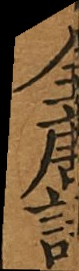全唐詩
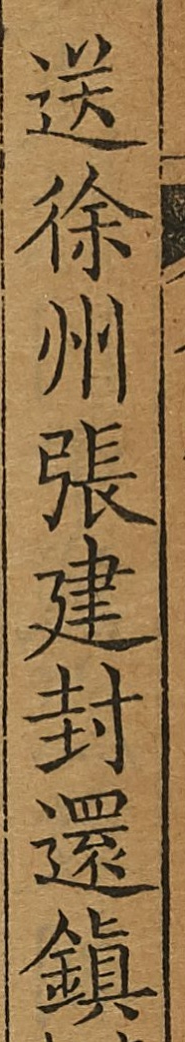送徐州張建封還鎮
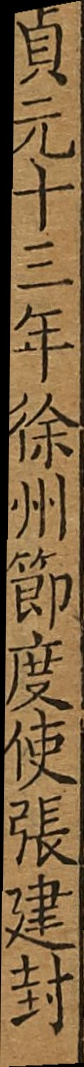貞元十三年徐州節度使張建封
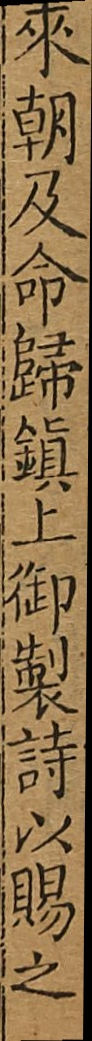來朝及命歸鎮上御製詩以賜之
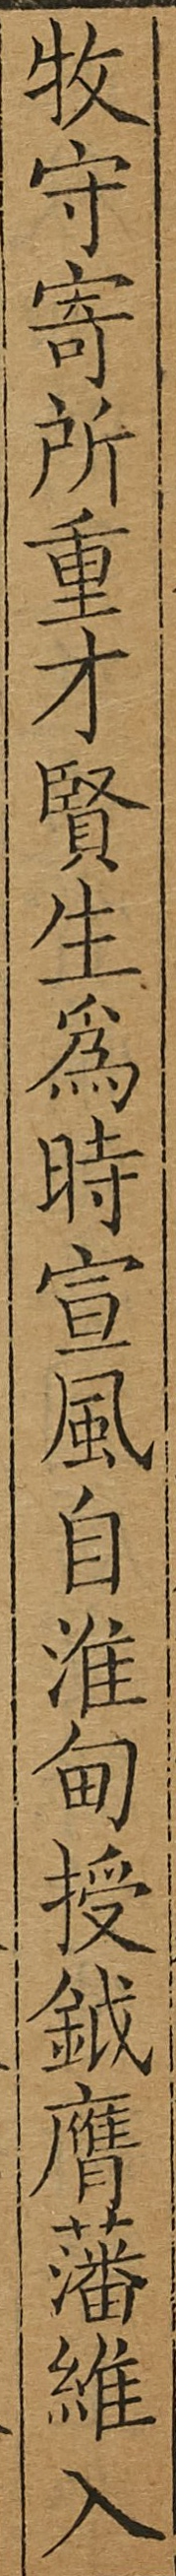牧守寄所重才賢生爲時宣風自淮甸授鉞膺藩維入
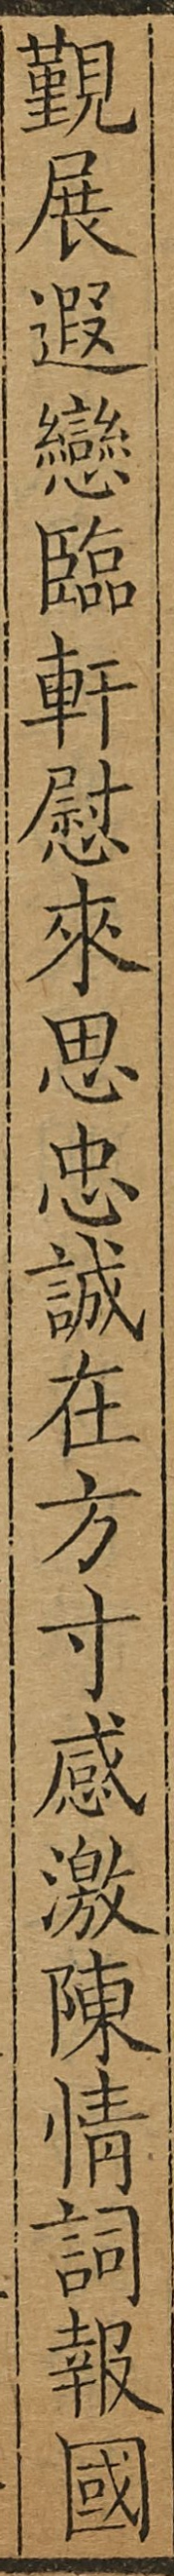覲展遐戀臨軒慰來思忠誠在方寸感激陳情詞報國
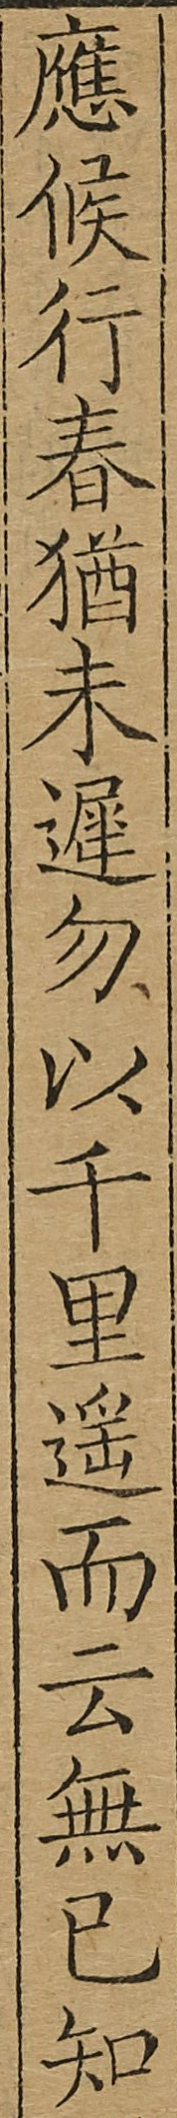應候行春猶未遲勿以千里遙而云無己知
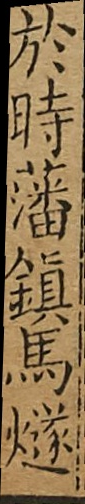於時藩鎮馬燧
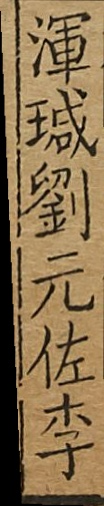渾瑊劉元佐李
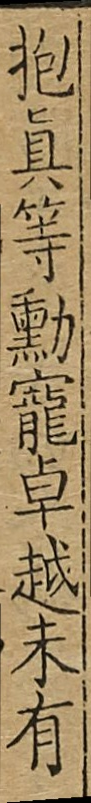抱真等勲寵卓越未有
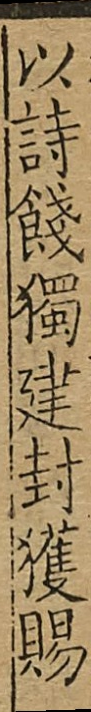以詩餞獨建封獲賜
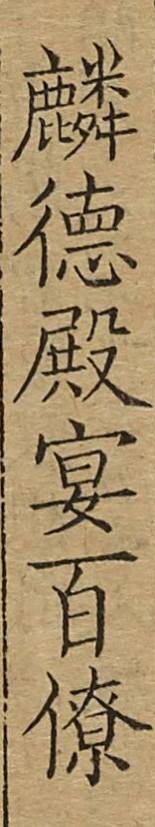麟德殿宴百僚
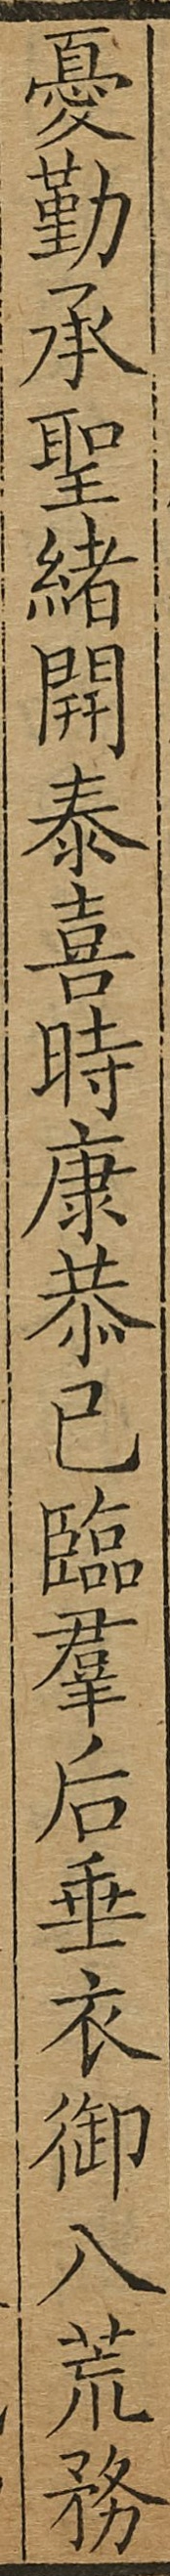憂勤承聖緒開泰喜時康恭己臨羣后垂衣御八荒務
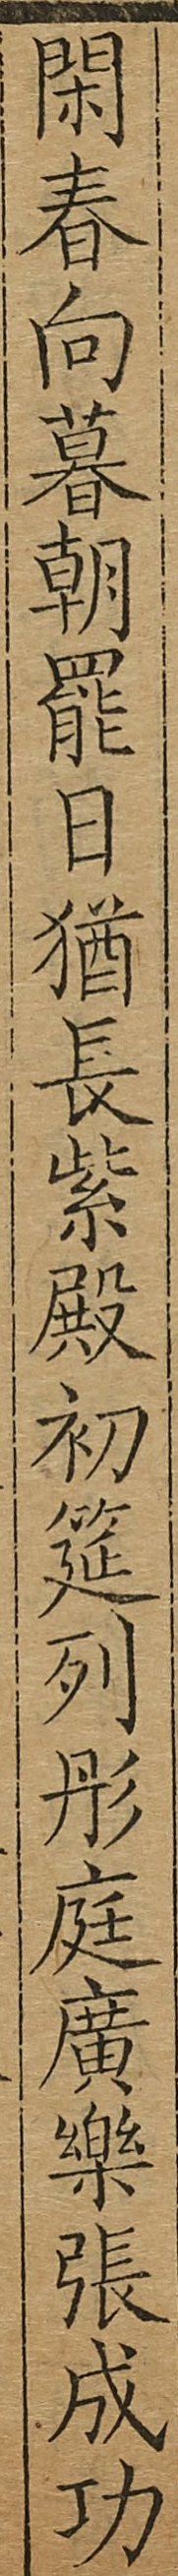閑春向暮朝罷日猶長紫殿初筵列彤庭廣樂張成功
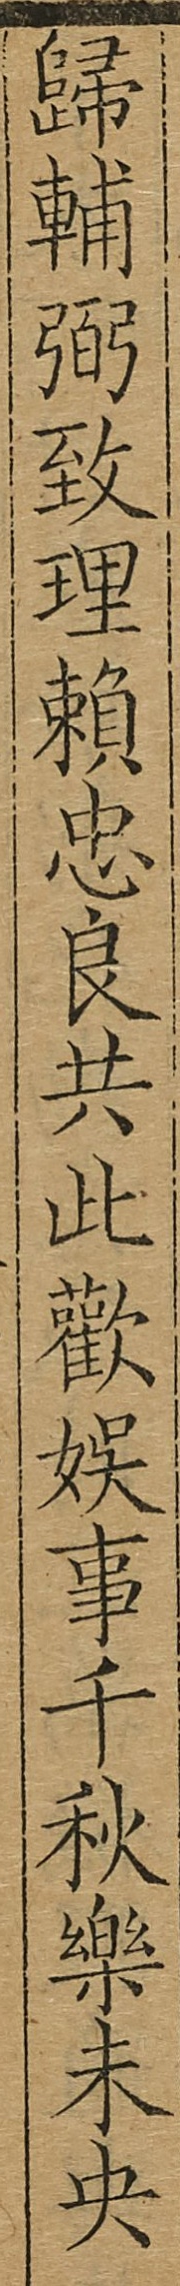歸輔弼致理賴忠良共此歡娛事千秋樂未央
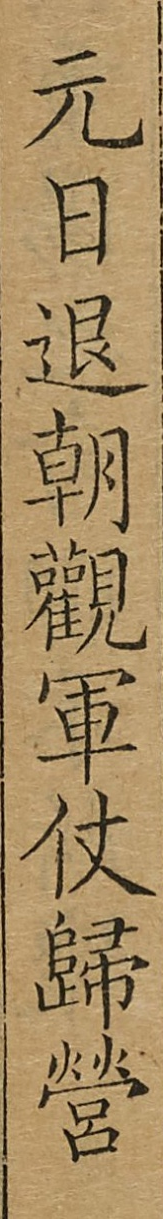元日退朝觀軍仗歸營
